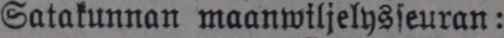Satakunnan maanwiljelysseuran:
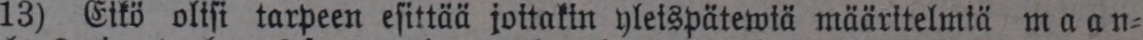13) Eikö olisi tarpeen esittää joitakin yleispätewiä määritelmiä maan-
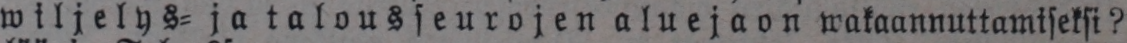wiljelys- ja talousseurojen aluejaon wakaannuttamiseksi?
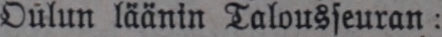Oulun läänin Talousseuran:
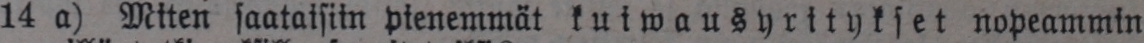14 a) Miten saataisiin pienemmät kuiwausyritykset nopeammin
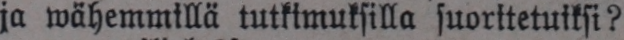ja wähemmillä tutkimuksilla suoritetuiksi?
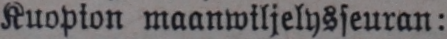Kuopion maanwiljelysseuran:
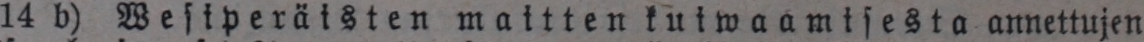14 b) Wesiperäisten maitten kuiwaamisesta annettujen
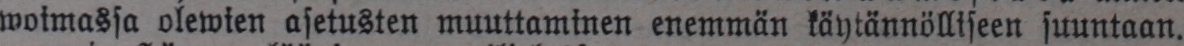woimassa olewien asetusten muuttaminen enemmän käytännölliseen suuntaan.
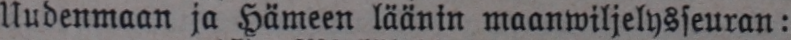Uudenmaan ja Hämeen läänin maanwiljelysseuran:
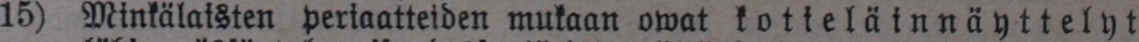15) Minkälaisten periaatteiden mukaan owat kotieläinnäyttelyt
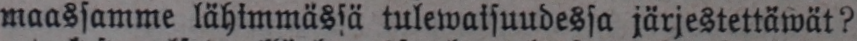maassamme lähimmässä tulewaisuudessa järjestettäwät?
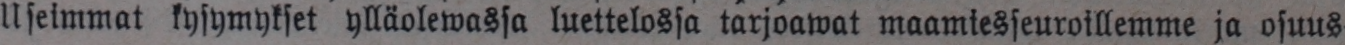Useimmat kysymykset ylläolewassa luettelossa tarjoawat maamiesseuroillemme ja osuus-
